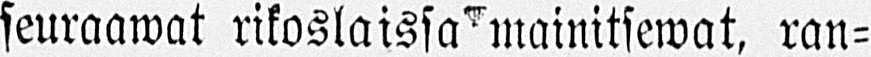seuraawat rikoslaissa mainitsewat, ran-
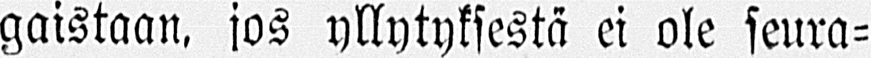gaistaan. jos yllytyksestä ei ole seura-
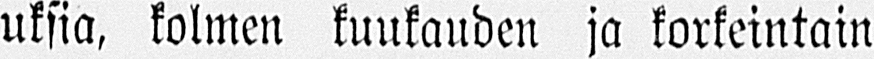uksia, kolmen kuukauden ja korkeintain
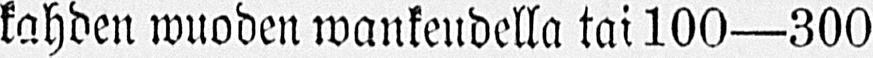kahden wuoden wankeudella tai 100—300
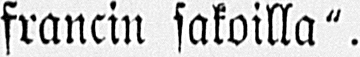francin sakoilla".
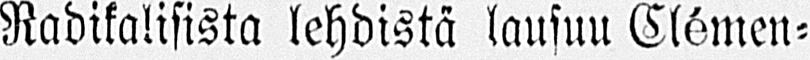Radikalisista lehdistä lausuu Clémen-
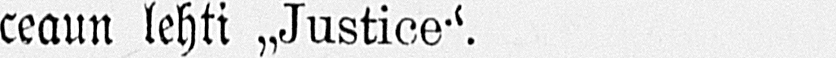ceaun lehti „Justice".
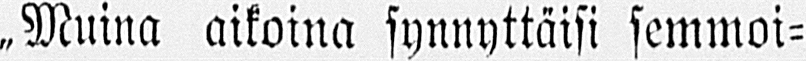„Muina aikoina synnyttäisi semmoi-
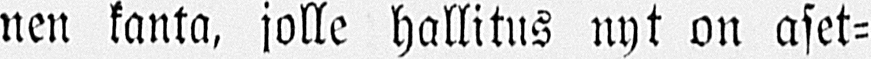nen kanta, jolle hallitus nyt on aset-
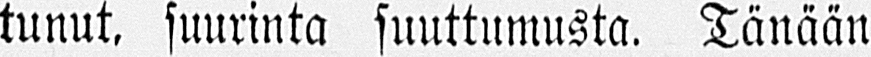tunut, suurinta suuttumusta. Tänään
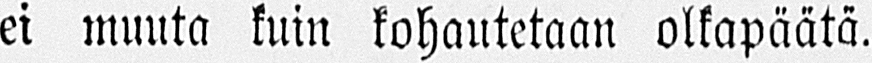ei muuta kuin kohautetaan olkapäätä.
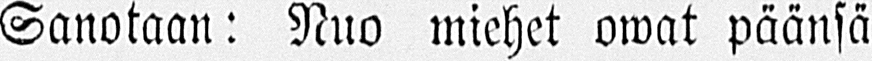Sanotaan: Nuo miehet owat päänsä
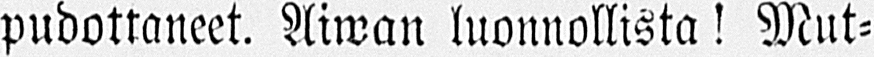pudottaneet. Aiwan luonnollista! Mut-
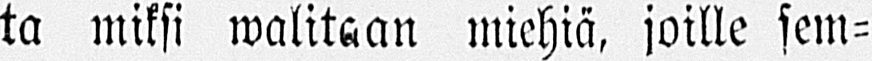ta miksi walitaan miehiä, joille sem-
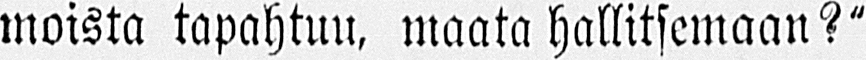moista tapahtuu, maata hallitsemaan?"
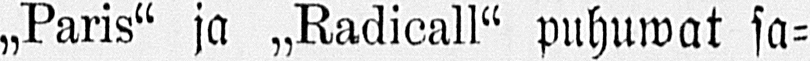„Paris" ja „Radicall" puhuwat sa-
